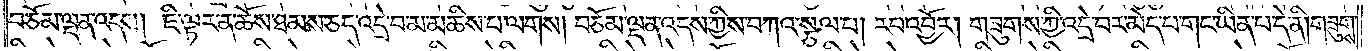བཅོམ་ལྡན་འདས། ཇི་ལྟར་ན་ཆོས་ཐམས་ཅད་འདྲེ་བ་མ་མཆིས་པ་ལགས། བཅོམ་ལྡན་འདས་ཀྱིས་བཀའ་སྩལ་པ། རབ་འབྱོར། གཟུགས་ཀྱི་འདྲེ་བ་མེད་པ་གང་ཡིན་པ་དེ་ནི། གཟུགས་
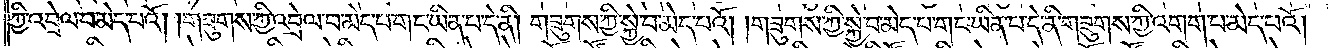ཀྱི་འབྲེལ་པ་མེད་པའོ། །གཟུགས་ཀྱི་འབྲེལ་པ་མེད་པ་གང་ཡིན་པ་དེ་ནི། གཟུགས་ཀྱི་སྐྱེ་བ་མེད་པའོ། །གཟུགས་ཀྱི་སྐྱེ་བ་མེད་པ་གང་ཡིན་པ་དེ་ནི་གཟུགས་ཀྱི་འགག་པ་མེད་པའོ།
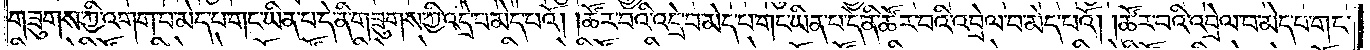གཟུགས་ཀྱི་འགག་པ་མེད་པ་གང་ཡིན་པ་དེ་ནི་གཟུགས་ཀྱི་འདྲེ་བ་མེད་པའོ། །ཚོར་བའི་འདྲེ་བ་མེད་པ་གང་ཡིན་པ་དེ་ནི་ཚོར་བའི་འབྲེལ་པ་མེད་པའོ། །ཚོར་བའི་འབྲེལ་པ་མེད་པ་གང་
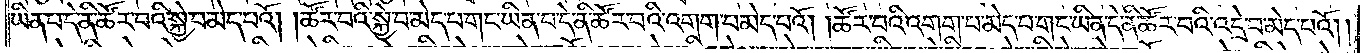ཡིན་པ་དེ་ནི་ཚོར་བའི་སྐྱེ་བ་མེད་པའོ། །ཚོར་བའི་སྐྱེ་བ་མེད་པ་གང་ཡིན་པ་དེ་ནི་ཚོར་བའི་འགག་པ་མེད་པའོ། །ཚོར་བའི་འགག་པ་མེད་པ་གང་ཡིན་པ་དེ་ནི་ཚོར་བའི་འདྲེ་བ་མེད་པའོ༎
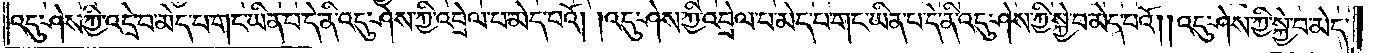འདུ་ཤེས་ཀྱི་འདྲེ་བ་མེད་པ་གང་ཡིན་པ་དེ་ནི་འདུ་ཤེས་ཀྱི་འབྲེལ་པ་མེད་པའོ། །འདུ་ཤེས་ཀྱི་འབྲེལ་པ་མེད་པ་གང་ཡིན་པ་དེ་ནི་འདུ་ཤེས་ཀྱི་སྐྱེ་བ་མེད་པའོ། །འདུ་ཤེས་ཀྱི་སྐྱེ་བ་མེད་
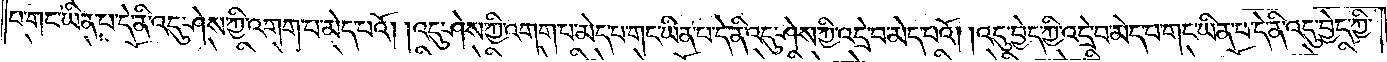པ་གང་ཡིན་པ་དེ་ནི་འདུ་ཤེས་ཀྱི་འགག་པ་མེད་པའོ། །འདུ་ཤེས་ཀྱི་འགག་པ་མེད་པ་གང་ཡིན་པ་དེ་ནི་འདུ་ཤེས་ཀྱི་འདྲེ་བ་མེད་པའོ། འདུ་བྱེད་ཀྱི་འདྲེ་བ་མེད་པ་གང་ཡིན་པ་དེ་ནི་འདུ་བྱེད་ཀྱི་
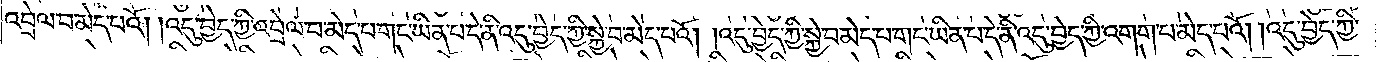འབྲེལ་པ་མེད་པའོ། །འདུ་བྱེད་ཀྱི་འབྲེལ་པ་མེད་པ་གང་ཡིན་པ་དེ་ནི་འདུ་བྱེད་ཀྱི་སྐྱེ་བ་མེད་པའོ། །འདུ་བྱེད་ཀྱི་སྐྱེ་བ་མེད་པ་གང་ཡིན་པ་དེ་ནི་འདུ་བྱེད་ཀྱི་འགག་པ་མེད་པའོ། །འདུ་བྱེད་ཀྱི་
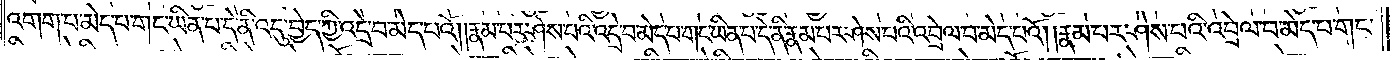འགག་པ་མེད་པ་གང་ཡིན་པ་དེ་ནི་འདུ་བྱེད་ཀྱི་འདྲེ་བ་མེད་པའོ། །རྣམ་པར་ཤེས་པའི་འདྲེ་བ་མེད་པ་གང་ཡིན་པ་དེ་ནི་རྣམ་པར་ཤེས་པའི་འབྲེལ་བ་མེད་པའོ། །རྣམ་པར་ཤེས་པའི་འབྲེལ་པ་མེད་པ་གང་
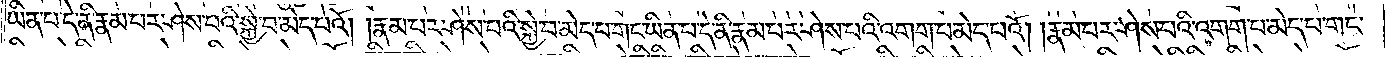ཡིན་པ་དེ་ནི་རྣམ་པར་ཤེས་པའི་སྐྱེ་བ་མེད་པའོ། །རྣམ་པར་ཤེས་པའི་སྐྱེ་བ་མེད་པ་གང་ཡིན་པ་དེ་ནི་རྣམ་པར་ཤེས་པའི་འགག་པ་མེད་པའོ། །རྣམ་པར་ཤེས་པའི་འགག་པ་མེད་པ་གང་
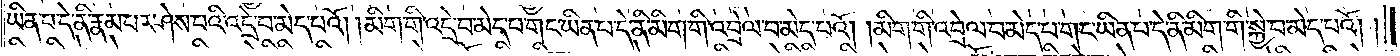ཡིན་པ་དེ་ནི་རྣམ་པར་ཤེས་པའི་འདྲེ་བ་མེད་པའོ། །མིག་གི་འདྲེ་བ་མེད་པ་གང་ཡིན་པ་དེ་ནི་མིག་གི་འབྲེལ་པ་མེད་པའོ། །མིག་གི་འབྲེལ་པ་མེད་པ་གང་ཡིན་པ་དེ་ནི་མིག་གི་སྐྱེ་བ་མེད་པའོ། །
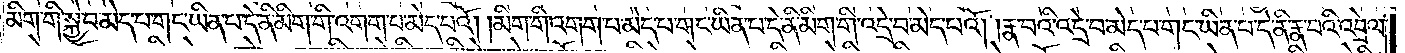མིག་གི་སྐྱེ་བ་མེད་པ་གང་ཡིན་པ་དེ་ནི་མིག་གི་འགག་པ་མེད་པའོ། །མིག་གི་འགག་པ་མེད་པ་གང་ཡིན་པ་དེ་ནི་མིག་གི་འདྲེ་བ་མེད་པའོ། །རྣ་བའི་འདྲེ་བ་མེད་པ་གང་ཡིན་པ་དེ་ནི་རྣ་བའི་འབྲེལ་
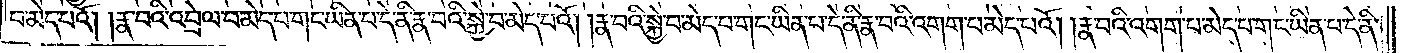པ་མེད་པའོ། །རྣ་བའི་འབྲེལ་པ་མེད་པ་གང་ཡིན་པ་དེ་ནི་རྣ་བའི་སྐྱེ་བ་མེད་པའོ། །རྣ་བའི་སྐྱེ་བ་མེད་པ་གང་ཡིན་པ་དེ་ནི་རྣ་བའི་འགག་པ་མེད་པའོ། །རྣ་བའི་འགག་པ་མེད་པ་གང་ཡིན་པ་དེ་ནི་
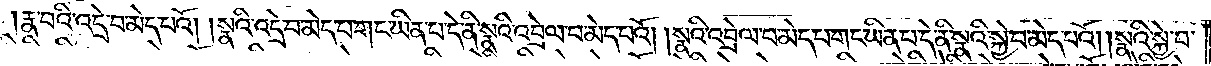རྣ་བའི་འདྲེ་བ་མེད་པའོ། །སྣའི་འདྲེ་བ་མེད་པ་གང་ཡིན་པ་དེ་ནི་སྣའི་འབྲེལ་པ་མེད་པའོ། །སྣའི་འབྲེལ་པ་མེད་པ་གང་ཡིན་པ་དེ་ནི་སྣའི་སྐྱེ་བ་མེད་པའོ། །སྣའི་སྐྱེ་བ་
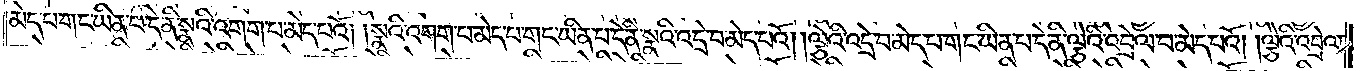མེད་པ་གང་ཡིན་པ་དེ་ནི་སྣའི་འགག་པ་མེད་པའོ། །སྣའི་འགག་པ་མེད་པ་གང་ཡིན་པ་དེ་ནི་སྣའི་འདྲེ་བ་མེད་པའོ། །ལྕེའི་འདྲེ་བ་མེད་པ་གང་ཡིན་པ་དེ་ནི་ལྕེའི་འབྲེལ་པ་མེད་པའོ། །ལྕེའི་འབྲེལ་
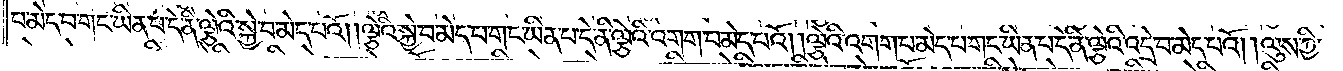བ་མེད་པ་གང་ཡིན་པ་དེ་ནི་ལྕེའི་སྐྱེ་བ་མེད་པའོ། །ལྕེའི་སྐྱེ་བ་མེད་པ་གང་ཡིན་པ་དེ་ནི་ལྕེའི་འགག་པ་མེད་པའོ། །ལྕེའི་འགག་པ་མེད་པ་གང་ཡིན་པ་དེ་ནི་ལྕེའི་འདྲེ་བ་མེད་པའོ། །ལུས་ཀྱི་
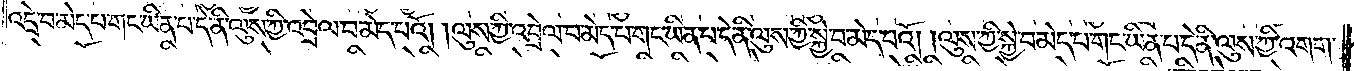འདྲེ་བ་མེད་པ་གང་ཡིན་པ་དེ་ནི་ལུས་ཀྱི་འབྲེལ་བ་མེད་པའོ། །ལུས་ཀྱི་འབྲེལ་བ་མེད་པ་གང་ཡིན་པ་དེ་ནི་ལུས་ཀྱི་སྐྱེ་བ་མེད་པའོ། །ལུས་ཀྱི་སྐྱེ་བ་མེད་པ་གང་ཡིན་པ་དེ་ནི་ལུས་ཀྱི་འགག་
